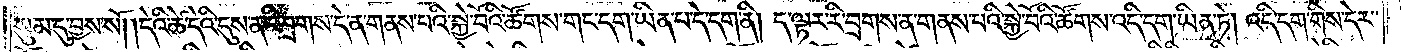སུམ་དུ་བྱས་སོ། །དེའི་ཚེ་དེའི་དུས་ན་རི་བྲགས་དེ་ན་གནས་པའི་སྐྱེ་བོའི་ཚོགས་གང་དག་ཡིན་པ་དེ་དག་ནི། ད་ལྟར་རི་བྲགས་ན་གནས་པའི་སྐྱེ་བོའི་ཚོགས་འདི་དག་ཡིན་ཏེ། འདི་དག་གིས་དེར་
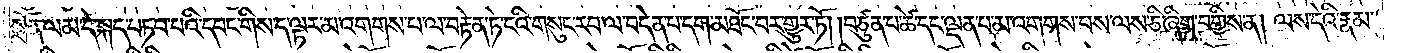སྨོན་ལམ་དེ་སྐད་བཏབ་པའི་དབང་གིས་ད་ལྟར་མ་འགགས་པ་ལ་བརྟེན་ཏེ་ངའི་གསུང་རབ་ལ་བདེན་པ་དག་མཐོང་བར་གྱུར་ཏོ། །བཙུན་པ་ཚེ་དང་ལྡན་པ་མ་འགགས་པས་ལས་ཅི་ཞིག་བགྱིས་ན། ལས་དེའི་རྣམ་
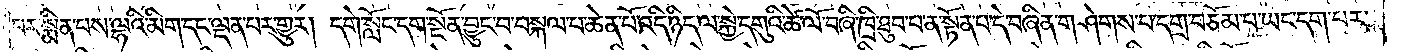པར་སྨིན་པས་ལྷའི་མིག་དང་ལྡན་པར་གྱུར། དགེ་སློང་དག་སྔོན་བྱུང་བ་བསྐལ་བ་ཆེན་པོ་འདི་ཉིད་ལ་སྐྱེ་དགུའི་ཚེ་ལོ་བཞི་ཁྲི་ཐུབ་པ་ན་སྟོན་པ་དེ་བཞིན་གཤེགས་པ་དགྲ་བཅོམ་པ་ཡང་དག་པར་
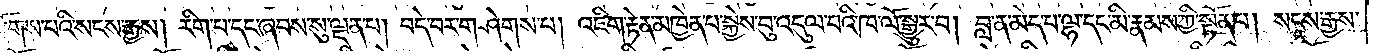རྫོགས་པའི་སངས་རྒྱས། རིག་པ་དང་ཞབས་སུ་ལྡན་པ། བདེ་བར་གཤེགས་པ། འཇིག་རྟེན་མཁྱེན་པ་སྐྱེས་བུ་འདུལ་བའི་ཁ་ལོ་སྒྱུར་བ། བླ་ན་མེད་པ་ལྷ་དང་མི་རྣམས་ཀྱི་སྟོན་པ། སངས་རྒྱས་
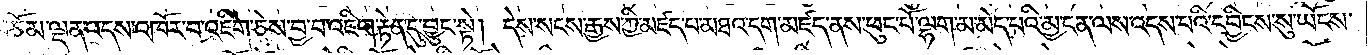བཅོམ་ལྡན་འདས་འཁོར་བ་འཇིག་ཅེས་བྱ་བ་འཇིག་རྟེན་དུ་བྱུང་སྟེ། དེས་སངས་རྒྱས་ཀྱི་མཛད་པ་མཐའ་དག་མཛད་ནས་ཕུང་པོ་ལྷག་མ་མེད་པའི་མྱ་ངན་ལས་འདས་པའི་དབྱིངས་སུ་ཡོངས་
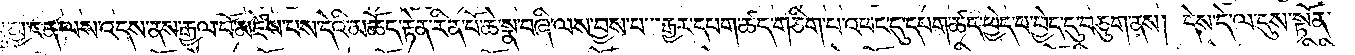སུ་མྱ་ངན་ལས་འདས་ནས་རྒྱལ་པོ་མཛེས་པས་དེའི་མཆོད་རྟེན་རིན་པོ་ཆེ་སྣ་བཞི་ལས་བྱས་པ་རྒྱར་དཔག་ཚད་གཅིག་པ་འཕང་དུ་དཔག་ཚད་ཕྱེད་པ་བྱེད་དུ་བཅུག་ནས། དེས་དེ་ལ་དུས་སྟོན་
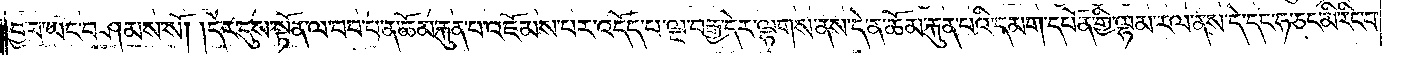བྱ་བ་ཡང་བཤམས་སོ། །དེར་དུས་སྟོན་ལ་བབ་པ་ན་ཆོམ་རྐུན་པ་འཇོམས་པར་འདོད་པ་ལྔ་བརྒྱ་དེར་ལྷགས་ནས་དེ་ན་ཆོམ་རྐུན་པའི་དམག་དཔོན་གྱི་ལྷམ་རལ་ནས་དེ་དང་ཧ་ཅང་མི་རིང་བ་
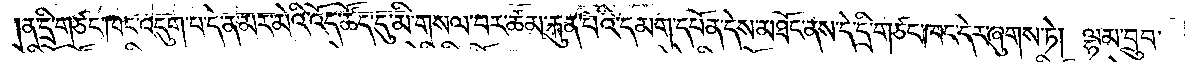ན་དྲི་གཙང་ཁང་འདུག་པ་དེ་ན་མར་མེའི་འོད་ཚོད་དུ་མི་གསལ་བར་ཆོམ་རྐུན་པའི་དམག་དཔོན་དེས་མཐོང་ནས་དེ་དྲི་གཙང་ཁང་དེར་ཞུགས་ཏེ། ལྷམ་བྲུབ་
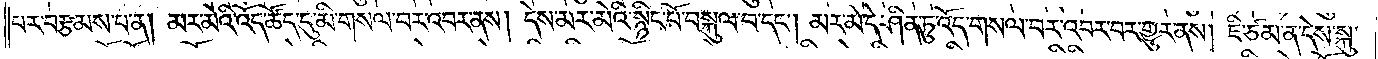པར་བརྩམས་པ་ན། མར་མེའི་འོད་ཚོད་དུ་མི་གསལ་བར་འབར་ནས། དེས་མར་མེའི་སྙིང་པོ་བསྐུལ་བ་དང༌། མར་མེ་དེ་ཤིན་ཏུ་འོད་གསལ་བར་འབར་བར་གྱུར་ནས། ཇི་ཙམ་ན་དེས་སྐུ་
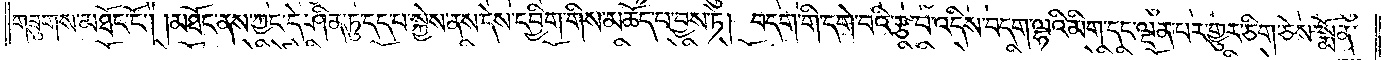གཟུགས་མཐོང་ངོ༌། །མཐོང་ནས་ཀྱང་དེ་ཤིན་ཏུ་དད་པ་སྐྱེས་ནས་དེས་དབྱིག་གིས་མཆོད་པ་བྱས་ཏེ། བདག་གི་དགེ་བའི་རྩ་བ་འདིས་བདག་ལྷའི་མིག་དང་ལྡན་པར་གྱུར་ཅིག་ཅེས་སྨོན་
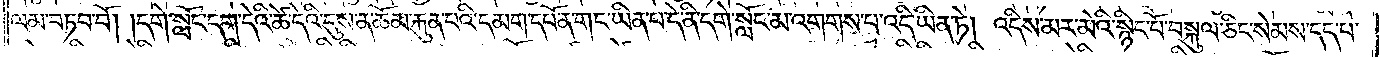ལམ་བཏབ་བོ། །དགེ་སློང་དག་དེའི་ཚེ་དེའི་དུས་ན་ཆོམ་རྐུན་པའི་དམག་དཔོན་གང་ཡིན་པ་དེ་ནི་དགེ་སློང་མ་འགགས་པ་འདི་ཡིན་ཏེ། འདིས་མར་མེའི་སྙིང་པོ་བསྐུལ་ཅིང་སེམས་དད་པ་
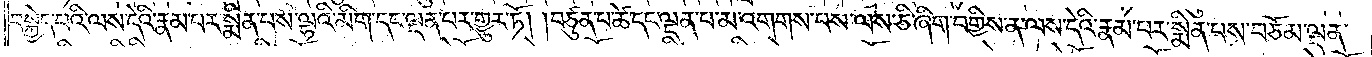བསྐྱེད་པའི་ལས་དེའི་རྣམ་པར་སྨིན་པས་ལྷའི་མིག་དང་ལྡན་པར་གྱུར་ཏོ། །བཙུན་པ་ཚེ་དང་ལྡན་པ་མ་འགགས་པས་ལས་ཅི་ཞིག་བགྱིས་ན་ལས་དེའི་རྣམ་པར་སྨིན་པས་བཅོམ་ལྡན་
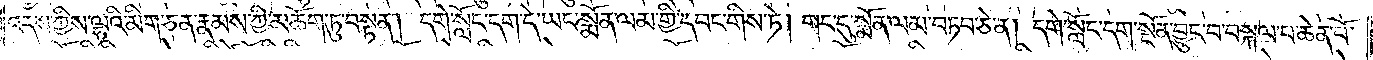འདས་ཀྱིས་ལྷའི་མིག་ཅན་རྣམས་ཀྱི་མཆོག་ཏུ་བསྟན། དགེ་སློང་དག་དེ་ཡང་སྨོན་ལམ་གྱི་དབང་གིས་ཏེ། གང་དུ་སྨོན་ལམ་བཏབ་ཅེ་ན། དགེ་སློང་དག་སྔོན་བྱུང་བ་བསྐལ་བ་ཆེན་པོ་
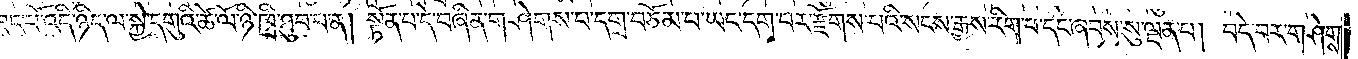བཟང་པོ་འདི་ཉིད་ལ་སྐྱེ་དགུའི་ཚེ་ལོ་ཉི་ཁྲི་ཐུབ་པ་ན། སྟོན་པ་དེ་བཞིན་གཤེགས་པ་དགྲ་བཅོམ་པ་ཡང་དག་པར་རྫོགས་པའི་སངས་རྒྱས་རིག་པ་དང་ཞབས་སུ་ལྡན་པ། བདེ་བར་གཤེགས་
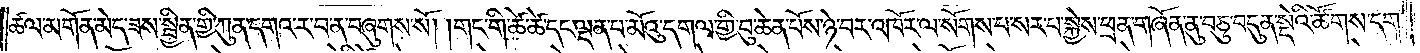ཚལ་མགོན་མེད་ཟས་སྦྱིན་གྱི་ཀུན་དགའ་ར་བ་ན་བཞུགས་སོ། །གང་གི་ཚེ་ཚེ་དང་ལྡན་པ་མོའུ་དགལ་གྱི་བུ་ཆེན་པོས་ཉེ་བར་འཁོར་ལ་སོགས་པ་སར་པ་སྐྱེས་ཕྲན་གཞོན་ནུ་བཅུ་བདུན་སྡེའི་ཚོགས་དག་
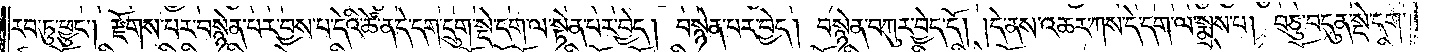རབ་ཏུ་ཕྱུང༌། རྫོགས་པར་བསྙེན་པར་བྱས་པ་དེའི་ཚེ་ན་དེ་དག་དྲུག་སྡེ་དག་ལ་སྟེན་པར་བྱེད། བསྙེན་པར་བྱེད། བསྙེན་བཀུར་བྱེད་དོ། །དེ་ནས་འཆར་ཀས་དེ་དག་ལ་སྨྲས་པ། བཅུ་བདུན་སྡེ་དག་
